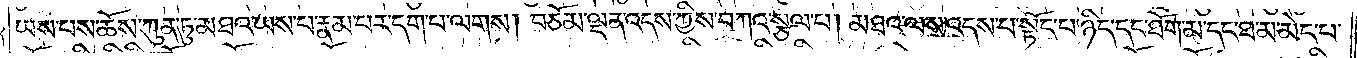ཡས་པས་ཆོས་ཀུན་ཏུ་མཐའ་ཡས་པ་རྣམ་པར་དག་པ་ལགས། བཅོམ་ལྡན་འདས་ཀྱིས་བཀའ་སྩལ་པ། མཐའ་ལས་འདས་པ་སྟོང་པ་ཉིད་དང་ཐོག་མ་དང་ཐ་མ་མེད་པ་
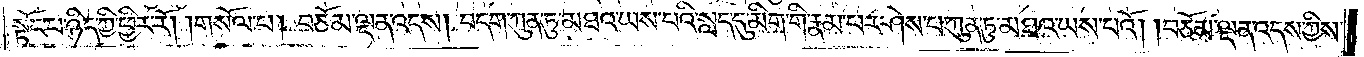སྟོང་པ་ཉིད་ཀྱི་ཕྱིར་རོ། །གསོལ་པ། བཅོམ་ལྡན་འདས། བདག་ཀུན་ཏུ་མཐའ་ཡས་པའི་སླད་དུ་མིག་གི་རྣམ་པར་ཤེས་པ་ཀུན་ཏུ་མཐའ་ཡས་པའོ། །བཅོམ་ལྡན་འདས་ཀྱིས་
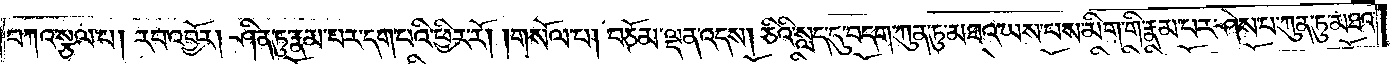བཀའ་སྩལ་པ། རབ་འབྱོར། ཤིན་ཏུ་རྣམ་པར་དག་པའི་ཕྱིར་རོ། །གསོལ་པ། བཅོམ་ལྡན་འདས། ཅིའི་སླད་དུ་བདག་ཀུན་ཏུ་མཐའ་ཡས་པས་མིག་གི་རྣམ་པར་ཤེས་པ་ཀུན་ཏུ་མཐའ་
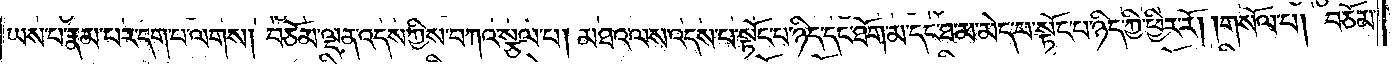ཡས་པ་རྣམ་པར་དག་པ་ལགས། བཅོམ་ལྡན་འདས་ཀྱིས་བཀའ་སྩལ་པ། མཐའ་ལས་འདས་པ་སྟོང་པ་ཉིད་དང་ཐོག་མ་དང་ཐ་མ་མེད་པ་སྟོང་པ་ཉིད་ཀྱི་ཕྱིར་རོ། །གསོལ་པ། བཅོམ་
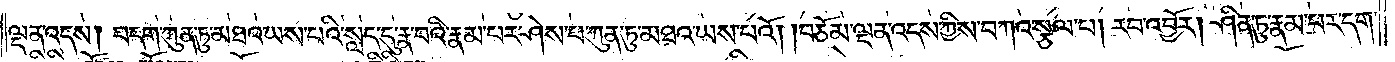ལྡན་འདས། བདག་ཀུན་ཏུ་མཐའ་ཡས་པའི་སླད་དུ་རྣ་བའི་རྣམ་པར་ཤེས་པ་ཀུན་ཏུ་མཐའ་ཡས་པའོ། །བཅོམ་ལྡན་འདས་ཀྱིས་བཀའ་སྩལ་པ། རབ་འབྱོར། ཤིན་ཏུ་རྣམ་པར་དག་
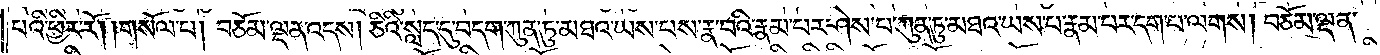པའི་ཕྱིར་རོ། །གསོལ་པ། བཅོམ་ལྡན་འདས། ཅིའི་སླད་དུ་བདག་ཀུན་ཏུ་མཐའ་ཡས་པས་རྣ་བའི་རྣམ་པར་ཤེས་པ་ཀུན་ཏུ་མཐའ་ཡས་པ་རྣམ་པར་དག་པ་ལགས། བཅོམ་ལྡན་
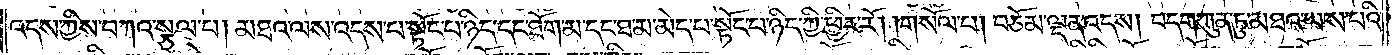འདས་ཀྱིས་བཀའ་སྩལ་པ། མཐའ་ལས་འདས་པ་སྟོང་པ་ཉིད་དང་ཐོག་མ་དང་ཐ་མ་མེད་པ་སྟོང་པ་ཉིད་ཀྱི་ཕྱིར་རོ། །གསོལ་པ། བཅོམ་ལྡན་འདས། བདག་ཀུན་ཏུ་མཐའ་ཡས་པའི་
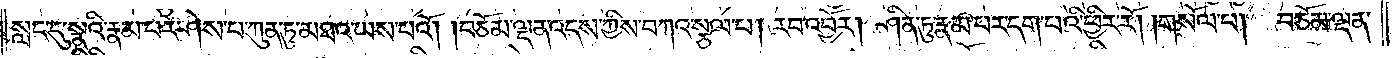སླད་དུ་སྣའི་རྣམ་པར་ཤེས་པ་ཀུན་ཏུ་མཐའ་ཡས་པའོ། །བཅོམ་ལྡན་འདས་ཀྱིས་བཀའ་སྩལ་པ། རབ་འབྱོར། ཤིན་ཏུ་རྣམ་པར་དག་པའི་ཕྱིར་རོ། །གསོལ་པ། བཅོམ་ལྡན་
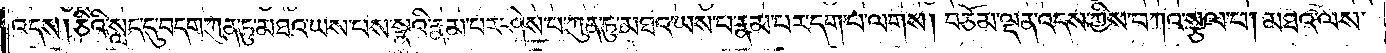འདས། ཅིའི་སླད་དུ་བདག་ཀུན་ཏུ་མཐའ་ཡས་པས་སྣའི་རྣམ་པར་ཤེས་པ་ཀུན་ཏུ་མཐའ་ཡས་པ་རྣམ་པར་དག་པ་ལགས། བཅོམ་ལྡན་འདས་ཀྱིས་བཀའ་སྩལ་པ། མཐའ་ལས་
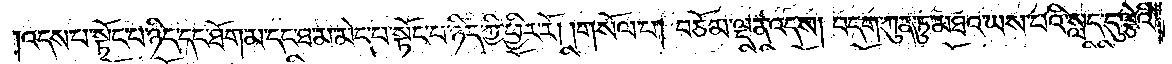འདས་པ་སྟོང་པ་ཉིད་དང་ཐོག་མ་དང་ཐ་མ་མེད་པ་སྟོང་པ་ཉིད་ཀྱི་ཕྱིར་རོ། །གསོལ་པ། བཅོམ་ལྡན་འདས། བདག་ཀུན་ཏུ་མཐའ་ཡས་པའི་སླད་དུ་ལྕེའི་
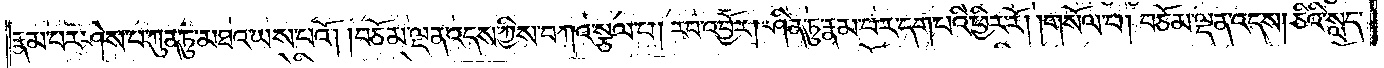རྣམ་པར་ཤེས་པ་ཀུན་ཏུ་མཐའ་ཡས་པའོ། །བཅོམ་ལྡན་འདས་ཀྱིས་བཀའ་སྩལ་པ། རབ་འབྱོར། ཤིན་ཏུ་རྣམ་པར་དག་པའི་ཕྱིར་རོ། །གསོལ་པ། བཅོམ་ལྡན་འདས། ཅིའི་སླད་
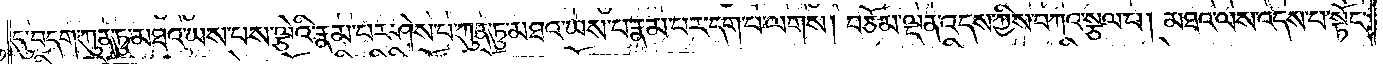དུ་བདག་ཀུན་ཏུ་མཐའ་ཡས་པས་ལྕེའི་རྣམ་པར་ཤེས་པ་ཀུན་ཏུ་མཐའ་ཡས་པ་རྣམ་པར་དག་པ་ལགས། བཅོམ་ལྡན་འདས་ཀྱིས་བཀའ་སྩལ་པ། མཐའ་ལས་འདས་པ་སྟོང་
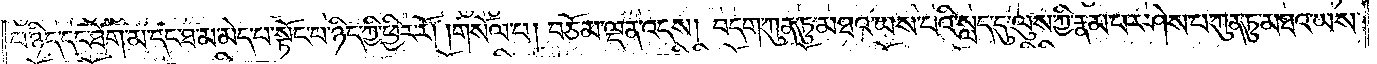པ་ཉིད་དང་ཐོག་མ་དང་ཐ་མ་མེད་པ་སྟོང་པ་ཉིད་ཀྱི་ཕྱིར་རོ། །གསོལ་པ། བཅོམ་ལྡན་འདས། བདག་ཀུན་ཏུ་མཐའ་ཡས་པའི་སླད་དུ་ལུས་ཀྱི་རྣམ་པར་ཤེས་པ་ཀུན་ཏུ་མཐའ་ཡས་
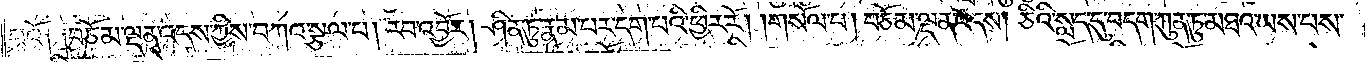པའོ༑ ༑བཅོམ་ལྡན་འདས་ཀྱིས་བཀའ་སྩལ་པ། རབ་འབྱོར། ཤིན་ཏུ་རྣམ་པར་དག་པའི་ཕྱིར་རོ། །གསོལ་པ། བཅོམ་ལྡན་འདས། ཅིའི་སླད་དུ་བདག་ཀུན་ཏུ་མཐའ་ཡས་པས་
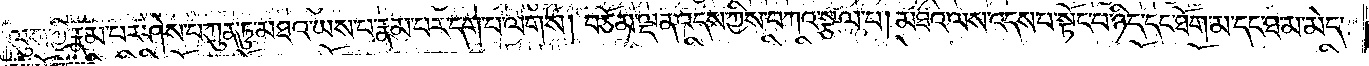ལུས་ཀྱི་རྣམ་པར་ཤེས་པ་ཀུན་ཏུ་མཐའ་ཡས་པ་རྣམ་པར་དག་པ་ལགས། བཅོམ་ལྡན་འདས་ཀྱིས་བཀའ་སྩལ་པ། མཐའ་ལས་འདས་པ་སྟོང་པ་ཉིད་དང་ཐོག་མ་དང་ཐ་མ་མེད་
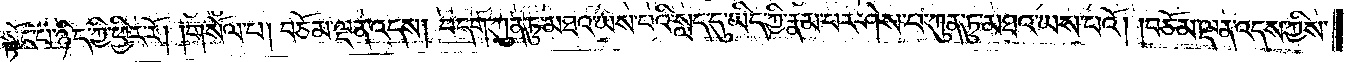པ་སྟོང་པ་ཉིད་ཀྱི་ཕྱིར་རོ། །གསོལ་པ། བཅོམ་ལྡན་འདས། བདག་ཀུན་ཏུ་མཐའ་ཡས་པའི་སླད་དུ་ཡིད་ཀྱི་རྣམ་པར་ཤེས་པ་ཀུན་ཏུ་མཐའ་ཡས་པའོ། །བཅོམ་ལྡན་འདས་ཀྱིས་
